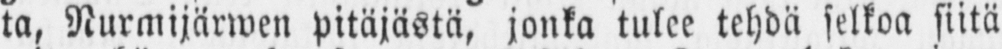ta, Nurmijärwen pitäjästä, jonka tulee tehdä selkoa siitä
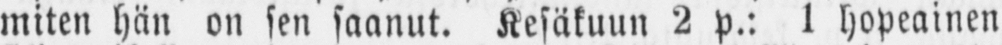miten hän on sen saanut. Kesäkuun 2 p.: 1 hopeainen
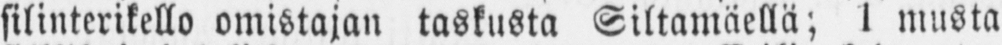silinterikello omistajan taskusta Siltamäellä; 1 musta
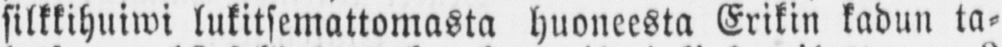silkkihuiwi lukitsemattomasta huoneesta Erikin kadun ta-
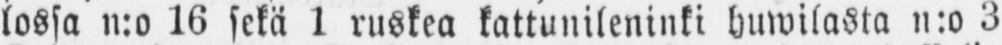lossa n:o 16 sekä 1 ruskea kattunileninki huwilasta n:o 3
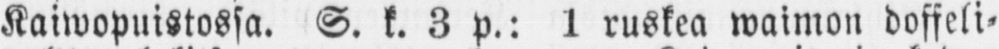Kaiwopuistossa. S. k. 3 p.: 1 ruskea waimon doffeli-
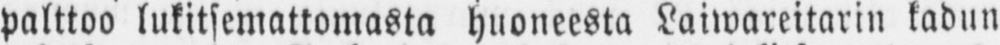palttoo lukitsemattomasta huoneesta Laiwareitarin kadun
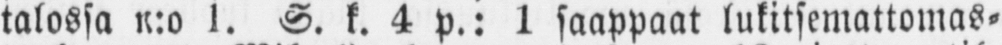talossa n:o l. S. k. 4 p.: 1 saappaat lukitsemattomas-
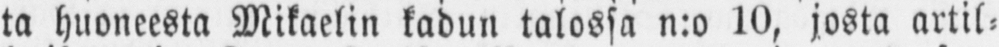ta huoneesta Mikaelin kadun talossa n:o 10, josta artil-
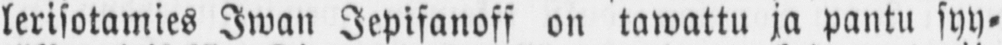lerisotamies Iwan Jepifanoff on tawattu ja pantu syy-
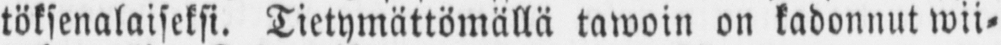töksenalaiseksi. Tietymättömällä tawoin on kadonnut wii-
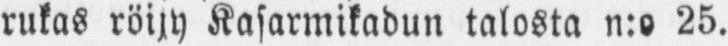rukas röijy Kasarmikadun talosta n:o 25.
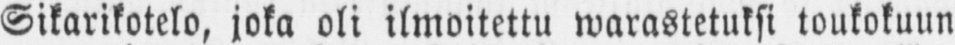Sikarikotelo, joka oli ilmoitettu warastetuksi toukokuun
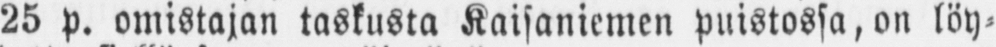25 p. omistajan taskusta Kaisaniemen puistossa, on löy-
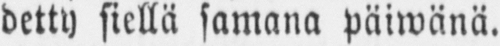detty siellä samana päiwänä.
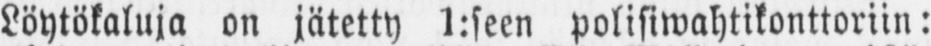Löytökaluja on jätetty 1:seen polisiwahtikonttoriin:
